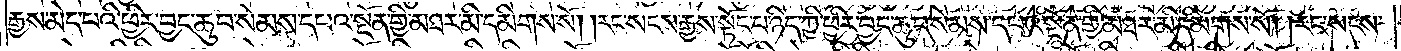རྒྱས་མེད་པའི་ཕྱིར་བྱང་ཆུབ་སེམས་དཔའ་སྔོན་གྱི་མཐར་མི་དམིགས་སོ། །རང་སངས་རྒྱས་སྟོང་པ་ཉིད་ཀྱི་ཕྱིར་བྱང་ཆུབ་སེམས་དཔའ་སྔོན་གྱི་མཐར་མི་དམིགས་སོ། །རང་སངས་
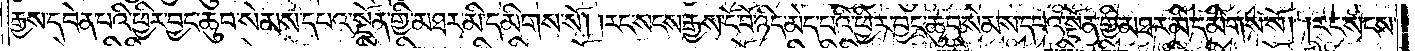རྒྱས་དབེན་པའི་ཕྱིར་བྱང་ཆུབ་སེམས་དཔའ་སྔོན་གྱི་མཐར་མི་དམིགས་སོ། །རང་སངས་རྒྱས་ངོ་བོ་ཉིད་མེད་པའི་ཕྱིར་བྱང་ཆུབ་སེམས་དཔའ་སྔོན་གྱི་མཐར་མི་དམིགས་སོ། །རང་སངས་
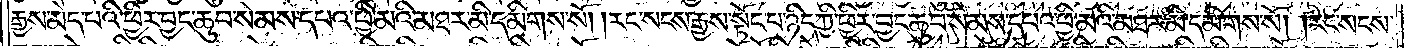རྒྱས་མེད་པའི་ཕྱིར་བྱང་ཆུབ་སེམས་དཔའ་ཕྱི་མའི་མཐར་མི་དམིགས་སོ། །རང་སངས་རྒྱས་སྟོང་པ་ཉིད་ཀྱི་ཕྱིར་བྱང་ཆུབ་སེམས་དཔའ་ཕྱི་མའི་མཐར་མི་དམིགས་སོ། །རང་སངས་
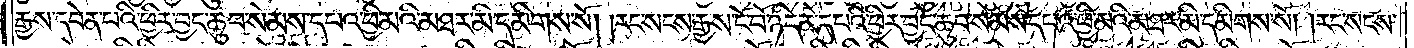རྒྱས་དབེན་པའི་ཕྱིར་བྱང་ཆུབ་སེམས་དཔའ་ཕྱི་མའི་མཐར་མི་དམིགས་སོ། །རང་སངས་རྒྱས་ངོ་བོ་ཉིད་མེད་པའི་ཕྱིར་བྱང་ཆུབ་སེམས་དཔའ་ཕྱི་མའི་མཐར་མི་དམིགས་སོ། །རང་སངས་
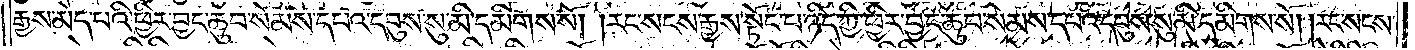རྒྱས་མེད་པའི་ཕྱིར་བྱང་ཆུབ་སེམས་དཔའ་དབུས་སུ་མི་དམིགས་སོ། །རང་སངས་རྒྱས་སྟོང་པ་ཉིད་ཀྱི་ཕྱིར་བྱང་ཆུབ་སེམས་དཔའ་དབུས་སུ་མི་དམིགས་སོ། །རང་སངས་
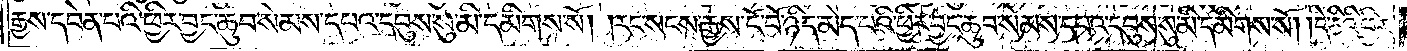རྒྱས་དབེན་པའི་ཕྱིར་བྱང་ཆུབ་སེམས་དཔའ་དབུས་སུ་མི་དམིགས་སོ། །རང་སངས་རྒྱས་ངོ་བོ་ཉིད་མེད་པའི་ཕྱིར་བྱང་ཆུབ་སེམས་དཔའ་དབུས་སུ་མི་དམིགས་སོ། །དེ་ཅིའི་ཕྱིར་
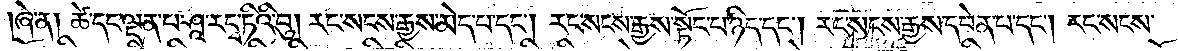ཞེ་ན། ཚེ་དང་ལྡན་པ་ཤཱ་རདྭ་ཏིའི་བུ། རང་སངས་རྒྱས་མེད་པ་དང༌། རང་སངས་རྒྱས་སྟོང་པ་ཉིད་དང༌། རང་སངས་རྒྱས་དབེན་པ་དང༌། རང་སངས་
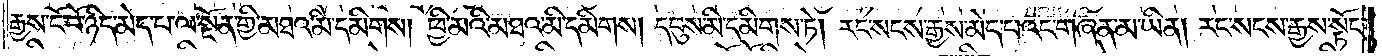རྒྱས་ངོ་བོ་ཉིད་མེད་པ་ལ་སྔོན་གྱི་མཐའ་མི་དམིགས། ཕྱི་མའི་མཐའ་མི་དམིགས། དབུས་མི་དམིགས་ཏེ། རང་སངས་རྒྱས་མེད་པའང་གཞན་མ་ཡིན། རང་སངས་རྒྱས་སྟོང་
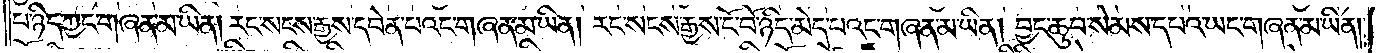པ་ཉིད་ཀྱང་གཞན་མ་ཡིན། རང་སངས་རྒྱས་དབེན་པའང་གཞན་མ་ཡིན། རང་སངས་རྒྱས་ངོ་བོ་ཉིད་མེད་པའང་གཞན་མ་ཡིན། བྱང་ཆུབ་སེམས་དཔའ་ཡང་གཞན་མ་ཡིན།
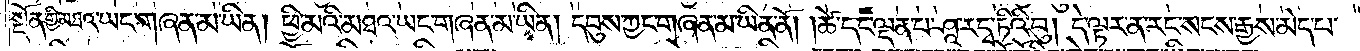སྔོན་གྱི་མཐའ་ཡང་གཞན་མ་ཡིན། ཕྱི་མའི་མཐའ་ཡང་གཞན་མ་ཡིན། དབུས་ཀྱང་གཞན་མ་ཡིན་ནོ། །ཚེ་དང་ལྡན་པ་ཤཱ་རདྭ་ཏིའི་བུ། དེ་ལྟར་ན་རང་སངས་རྒྱས་མེད་པ་
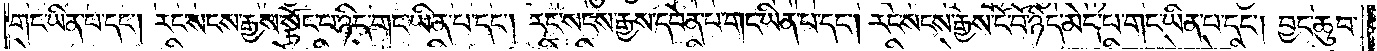གང་ཡིན་པ་དང༌། རང་སངས་རྒྱས་སྟོང་པ་ཉིད་གང་ཡིན་པ་དང༌། རང་སངས་རྒྱས་དབེན་པ་གང་ཡིན་པ་དང༌། རང་སངས་རྒྱས་ངོ་བོ་ཉིད་མེད་པ་གང་ཡིན་པ་དང༌། བྱང་ཆུབ་
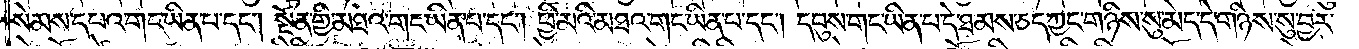སེམས་དཔའ་གང་ཡིན་པ་དང༌། སྔོན་གྱི་མཐའ་གང་ཡིན་པ་དང༌། ཕྱི་མའི་མཐའ་གང་ཡིན་པ་དང༌། དབུས་གང་ཡིན་པ་དེ་ཐམས་ཅད་ཀྱང་གཉིས་སུ་མེད་དེ་གཉིས་སུ་བྱར་
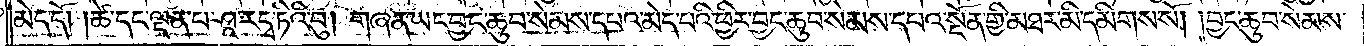མེད་དོ། །ཚེ་དང་ལྡན་པ་ཤཱ་རདྭ་ཏིའི་བུ། གཞན་ཡང་བྱང་ཆུབ་སེམས་དཔའ་མེད་པའི་ཕྱིར་བྱང་ཆུབ་སེམས་དཔའ་སྔོན་གྱི་མཐར་མི་དམིགས་སོ། །བྱང་ཆུབ་སེམས་
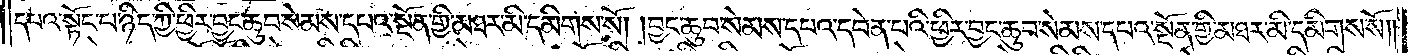དཔའ་སྟོང་པ་ཉིད་ཀྱི་ཕྱིར་བྱང་ཆུབ་སེམས་དཔའ་སྔོན་གྱི་མཐར་མི་དམིགས་སོ། །བྱང་ཆུབ་སེམས་དཔའ་དབེན་པའི་ཕྱིར་བྱང་ཆུབ་སེམས་དཔའ་སྔོན་གྱི་མཐར་མི་དམིགས་སོ༎
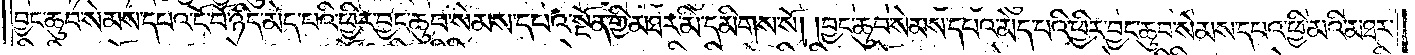བྱང་ཆུབ་སེམས་དཔའ་ངོ་བོ་ཉིད་མེད་པའི་ཕྱིར་བྱང་ཆུབ་སེམས་དཔའ་སྔོན་གྱི་མཐར་མི་དམིགས་སོ། །བྱང་ཆུབ་སེམས་དཔའ་མེད་པའི་ཕྱིར་བྱང་ཆུབ་སེམས་དཔའ་ཕྱི་མའི་མཐར་
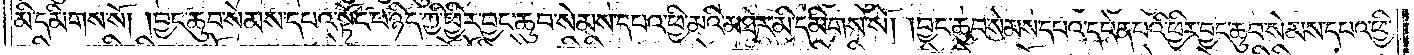མི་དམིགས་སོ། །བྱང་ཆུབ་སེམས་དཔའ་སྟོང་པ་ཉིད་ཀྱི་ཕྱིར་བྱང་ཆུབ་སེམས་དཔའ་ཕྱི་མའི་མཐར་མི་དམིགས་སོ། །བྱང་ཆུབ་སེམས་དཔའ་དབེན་པའི་ཕྱིར་བྱང་ཆུབ་སེམས་དཔའ་ཕྱི་
